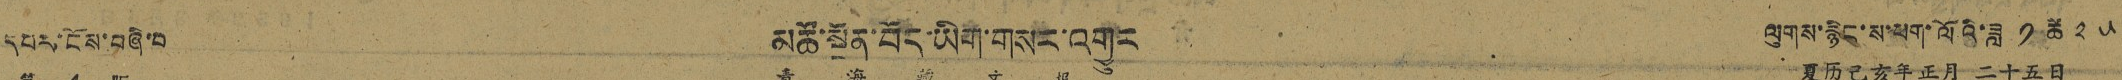དཔར་ངོས་བཞི་པ མཚོ་སྔོན་བོད་ཡིག་གསར་འགྱུར ལུགས་རྙིང་ས་ཕག་ལོའི་ཟླ ༡ ཚེ ༢ ༥
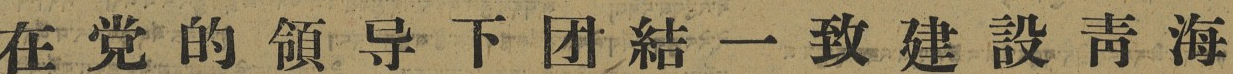在党的領导下团結一致建設靑海
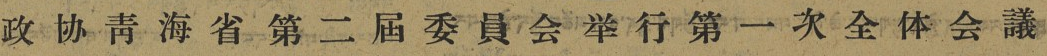政协靑海省第二屆委員会举行第一次全体会議
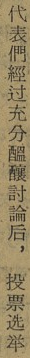代表們經过充分醞釀討論后，投票选举
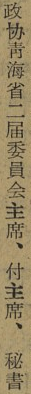政协靑海省第二屆委員会主席、付主席、秘書
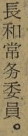長和常务委員。
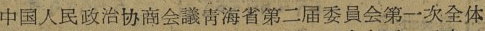中国人民政治协商会議靑海省第二届委員会第一次全体
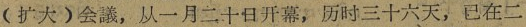（扩大）会議，从一月二十日开幕，历史三十六天，已在二
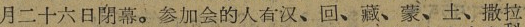月二十六日閉幕。参加会的人有汉、回、藏、蒙、土、撒拉
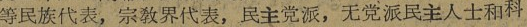等民族代表，宗敎界代表，民主党派，无党派民主人士和科
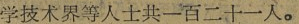学技术界等人士共一百二十一人。
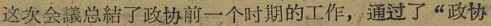这次会議总結了政协前一个时期的工作，通过了“政协
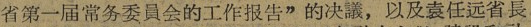省第一届常务委員会的工作报告”的决議，以及袁任远省長
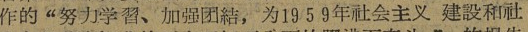作的“努力学習、加强团結，为1959年社会主义 建設和社
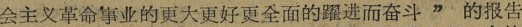会主义革命事业的更大更好更全面的躍进而奋斗”的报告
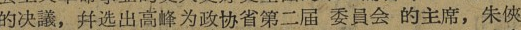的决議，并选出高峰为政协省第二届 委員会 的主席，朱俠
